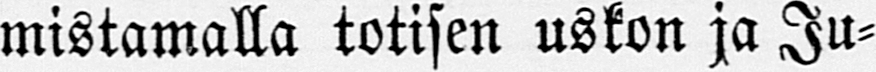mistamalla totisen uskon ja Ju-
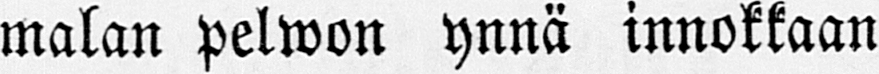malan pelwon ynnä innokkaan
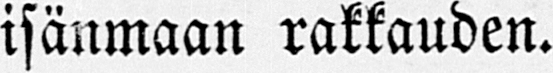isänmaan rakkauden.
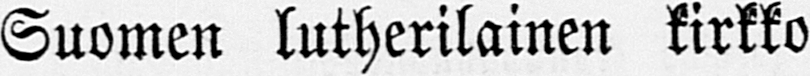Suomen lutherilainen kirkko
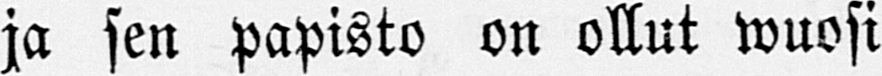ja sen papisto on ollut wuosi
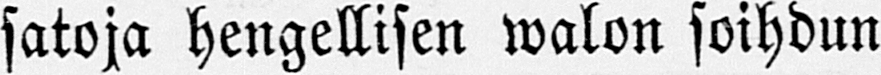satoja hengellisen walon soihdun
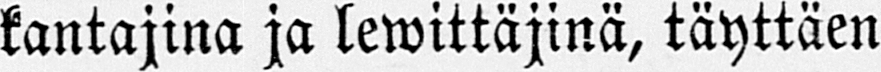kantajina ja lewittäjinä, täyttäen
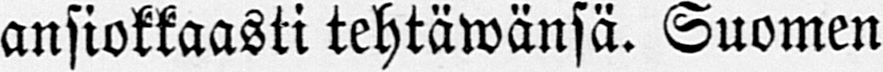ansiokkaasti tehtäwänsä. Suomen
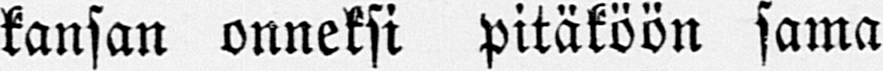kansan onneksi pitäköön sama
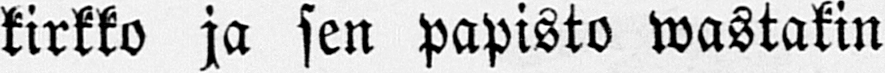kirkko ja sen papisto wastakin
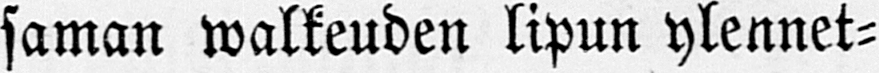saman walkeuden lipun ylennet-
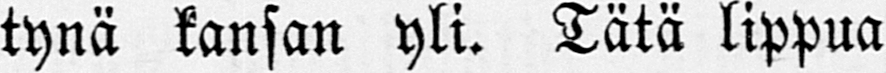tynä kansan yli. Tätä lippua
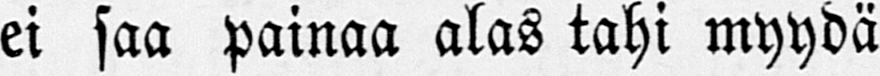ei saa painaa alas tahi myydä
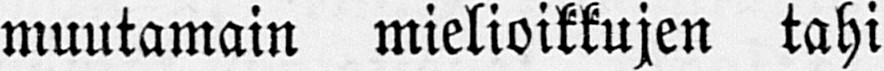muutamain mielioikkujen tahi
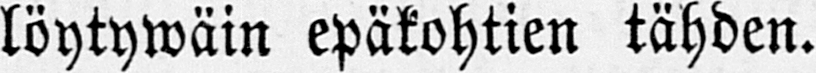löytywäin epäkohtien tähden.
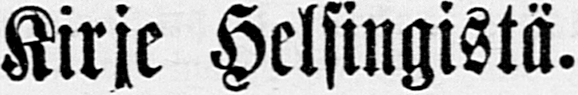Kirje Helsingistä.
